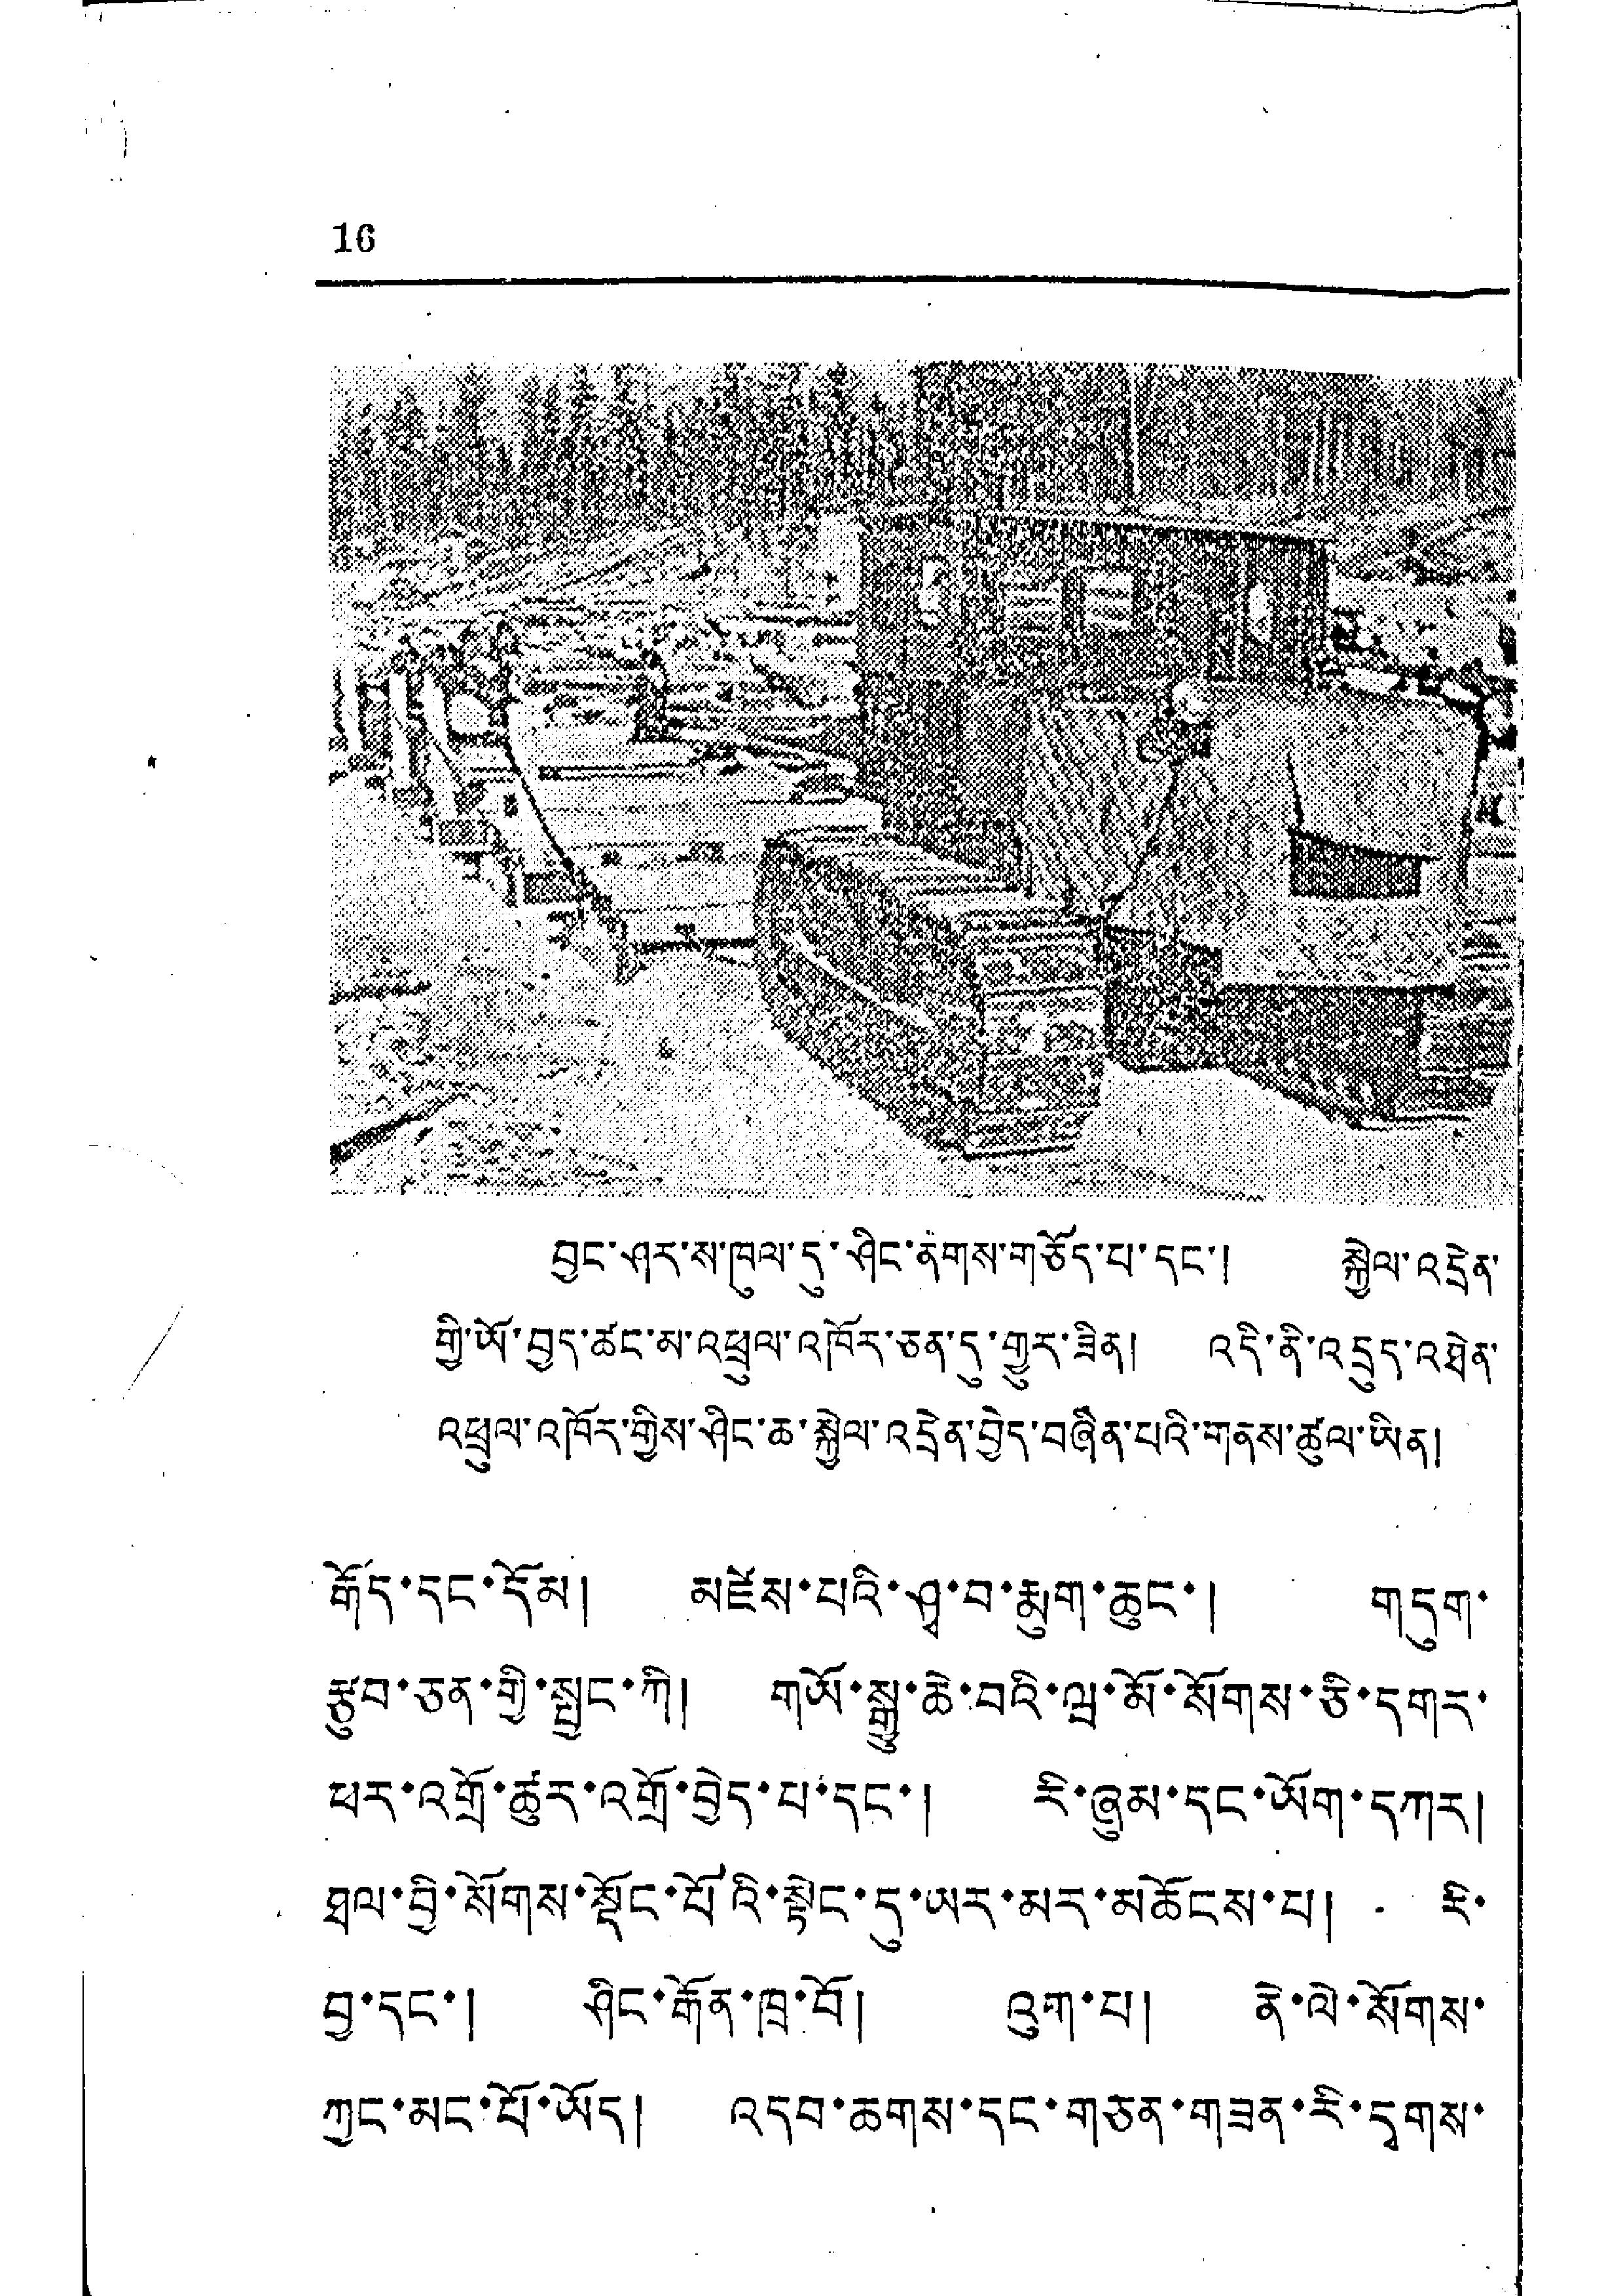16
བྱང་ཤར་ས་ཁུལ་དུ་ཤིང་ནགས་གཅོད་པ་དང་། སྐྱེལ་འདྲེན་
གྱི་ཡོ་བྱད་ཚང་མ་འཕྲུལ་འཁོར་ཅན་དུ་གྱུར་ཟིན། འདི་ནི་འདྲུད་འཐེན་
འཕྲུལ་འཁོར་གྱིས་ཤིང་ཆ་སྐྱེལ་འདྲེན་བྱེད་བཞིན་པའི་གནས་ཚུལ་ཡིན།
རྒོད་དང་དོམ། མཛེས་པའི་ཤྭ་བ་རྨུག་ཆུང་། གདུག་
རྩུབ་ཅན་གྱི་སྤྱང་ཀི། གཡོ་སྒྱུ་ཆེ་བའི་ཝ་མོ་སོགས་ཅི་དགར་
ཕར་འགྲོ་ཚུར་འགྲོ་བྱེད་པ་དང་། རི་ཞུམ་དང་ཡོག་དཀར།
ཐལ་བྱི་སྲོགས་སྡོང་པའི་སྟེང་དུ་ཡར་མར་མཆོངས་པ། རི་
བྱ་དང་། ཤིང་རྒོན་ཁྲ་བོ། འུག་པ། ནེ་ལེ་སོགས་
ཀྱང་མང་པོ་ཡོད། འདབ་ཆགས་དང་གཅན་གཟན་རི་དྭགས་
